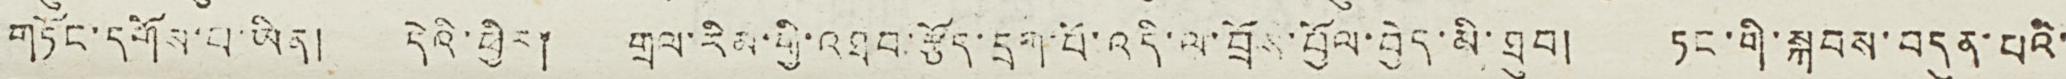གཏོང་དགོས་པ་ཡིན། དེའི་ཕྱིར། གྲལ་རིམ་གྱི་འཐབ་རྩོད་དྲག་པོ་འདི་ལ་བྲོས་བྱོལ་བྱེད་མི་ཐུབ། ཏང་གི་སྐབས་བདུན་པའི་
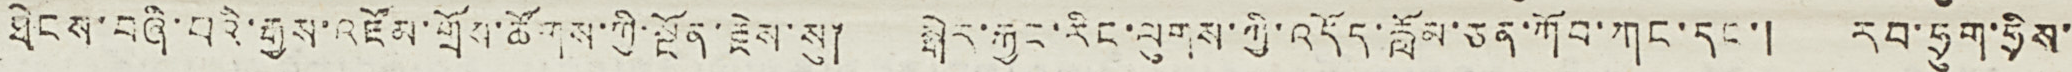ཐེངས་བཞི་པའི་རྒྱས་འཛོམ་གྲོས་ཚོགས་ཀྱི་སྔོན་རྗེས་སུ། སྒེར་རྐྱང་རིང་ལུགས་ཀྱི་འདོད་རློམ་ཅན་ཀོབ་ཀང་དང་། རབ་ཧྲུག་ཧྲིས་
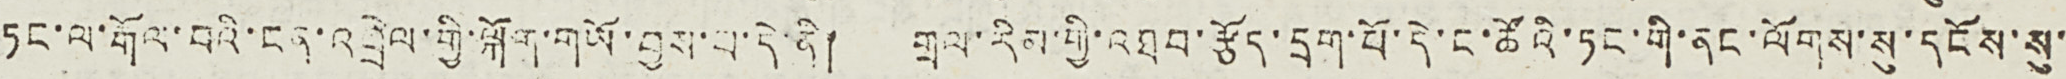ཏང་ལ་རྒོལ་བའི་ངན་འབྲེལ་གྱི་ལྐོག་གཡོ་བྱས་པ་དེ་ནི། གྲལ་རིམ་གྱི་འཐབ་རྩོད་དྲག་པོ་དེ་ང་ཚོའི་ཏང་གི་ནང་ལོགས་སུ་དངོས་སུ་
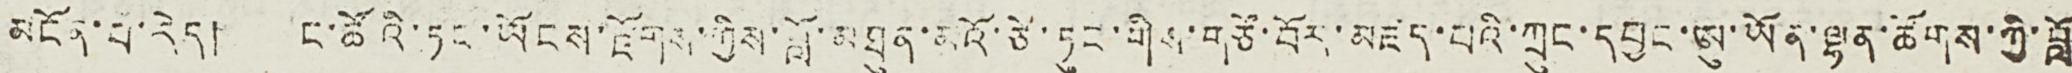མངོན་པ་རེད། ང་ཚོའི་ཏང་ཡོངས་རྫོགས་ཀྱིས་བློ་མཐུན་མའོ་ཙེ་ཏུང་གིས་གཙོ་བོར་མཛད་པའི་ཀྲུང་དབྱང་ཨུ་ཡོན་ལྷན་ཚོགས་ཀྱི་བློ
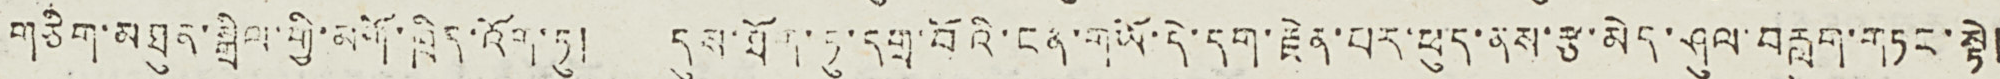གཅིག་མཐུན་སྒྲིལ་གྱི་མགོ་ཁྲིད་འོག་ཏུ། དུས་ཐོག་ཏུ་དགྲ་བོའི་ངན་གཡོ་དེ་དག་རྗེན་པར་ཕུད་ནས་རྩ་མེད་ཤུལ་བརླག་གཏང་སྟེ།
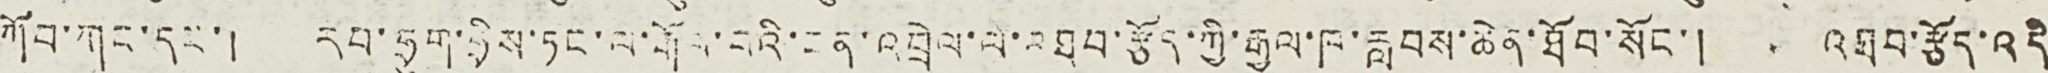ཀོབ་ཀང་དང་། རབ་ཧྲུག་ཧྲིས་ཏང་ལ་རྒོལ་བའི་ངན་འབྲེལ་ལ་འཐབ་རྩོད་ཀྱི་རྒྱལ་ཁ་རླབས་ཆེན་ཐོབ་སོང་། འཐབ་རྩོད་འདི་
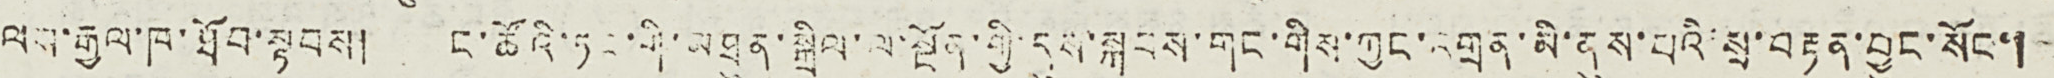ལས་རྒྱལ་ཁ་ཐོབ་སྟབས། ང་ཚོའི་ཏང་གི་མཐུན་སྒྲིལ་ལ་སྔོན་གྱི་དུས་སྐབས་གང་གིས་ཀྱང་འགྲན་མི་ནུས་པའི་སྲ་བརྟན་བྱུང་སོང་།
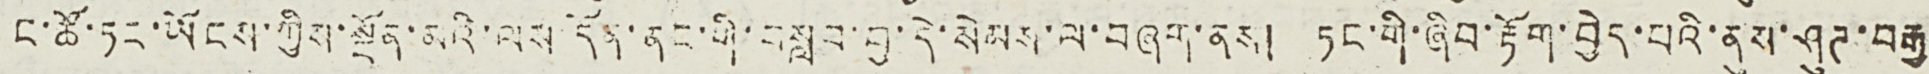ང་ཚོ་ཏང་ཡོངས་ཀྱིས་སྔོན་མའི་ལས་དོན་ནང་གི་བསླབ་བྱ་དེ་སེམས་ལ་བཞག་ནས། ཏང་གི་ཞིབ་རྟོག་བྱེད་པའི་ནུས་ཤུཊ་བརྒྱ
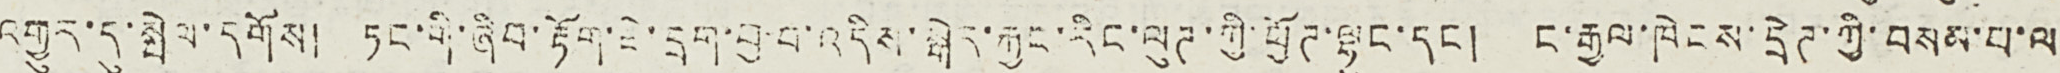འགྱུར་དུ་སྤེལ་དགོས། ཏང་གི་ཞིབ་རྟོག་ཇེ་དྲག་བྱ་བ་འདིས་སྒེར་རྐྱང་རིང་ལུཊ་ཀྱི་ཕྱོཊ་ལྷུང་དང ། ང་རྒྱལ་ཁེངས་དྲེཊ་ཀྱི་བསམ་པ་ལ
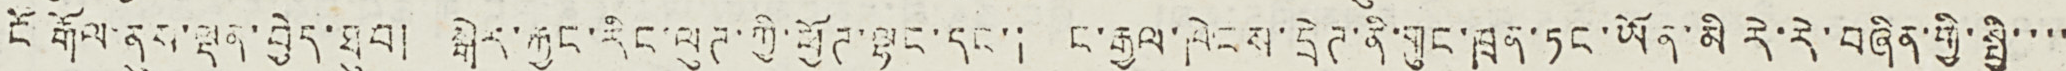ངོ་རྒོལ་ནུས་ལྡན་བྱེད་ཐུབ། སྒེར་རྐྱང་རིང་ལུཊ་ཀྱི་ཕྱོཊ་ལྷུང་དང་། ང་རྒྱལ་ཁེངས་དྲེཊ་ནི་གུང་ཁྲན་ཏང་ཡོན་མི་རེ་རེ་བཞིན་གྱི་སྤྱི་་་་
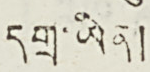དགྲ་ཡིན།
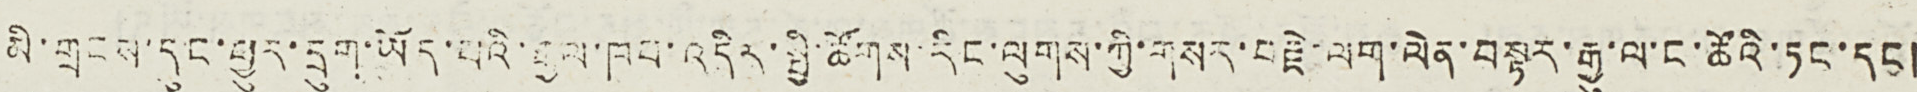མི་གྲངས་དུང་ཕྱུར་དྲུག་ཡོད་པའི་རྒྱལ་ཁབ་འདིར་སྤྱི་ཚོགས་རིང་ལུགས་ཀྱི་གསར་བརྗེ་ལག་ལེན་བསྟར་རྒྱུ་ལ་ང་ཚོའི་ཏང་དང །
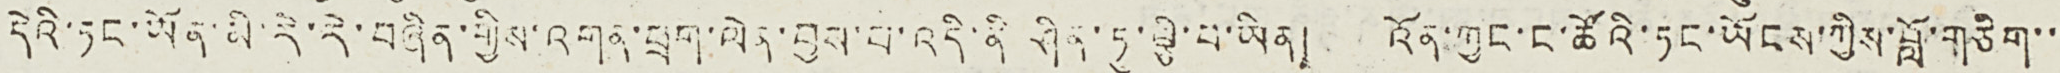དེའི་ཏང་ཡོན་མི་རེ་རེ་བཞིན་གྱིས་འགན་བྲག་ལེན་བྱས་པ་འདི་ནི་ཤིན་ཏུ་ལྕི་བ་ཡིན། འོན་ཀྱང་ང་ཚོའི་ཏང་ཡོངས་ཀྱིས་བློ་གཅིག་་་
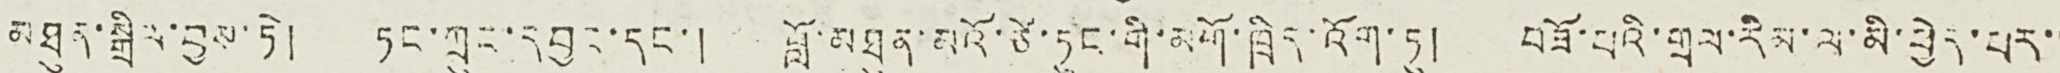མཐུན་སྒྲིལ་བྱས་ཏེ། ཏང་ཀྲུང་དབྱང་དང་། བློ་མཐུན་མའོ་ཙེ་ཏུང་གི་མགོ་ཁྲིད་འོག་ཏུ། བཟོ་པའི་གྲལ་རིམ་ལ་མི་བྱེད་པར་་
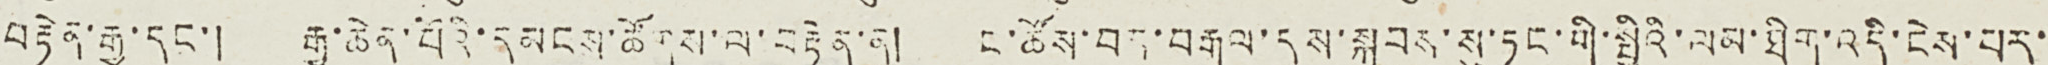བརྟེན་རྒྱུ་དང་། རྒྱ་ཆེན་པོའི་དམངས་ཚོགས་ལ་བརྟེན་ན། ང་ཚོས་བར་བརྒལ་དུས་སྐབས་སུ་ཏང་གི་སྤྱིའི་ལམ་ཐིག་འདི་ངེས་པར་་
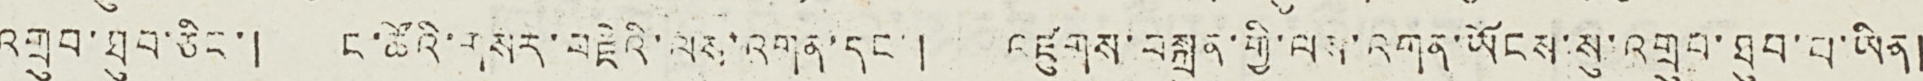འགྲུབ་ཐུབ་ཅིང་། ང་ཚོའི་གསར་བརྗེའི་ལས་འགན་དང་། འཛུགས་བསྐྲུན་གྱི་ལས་འགན་ཡོངས་སུ་འགྲུབ་ཐུབ་པ་ཡིན།
